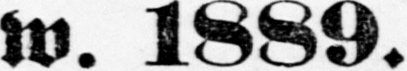w. 1889.
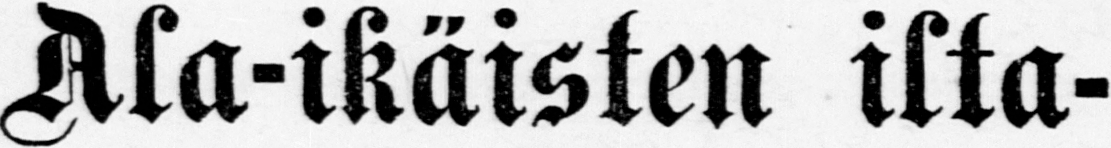Ala-ikäisten ilta-
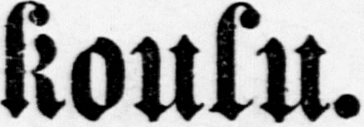koulu.
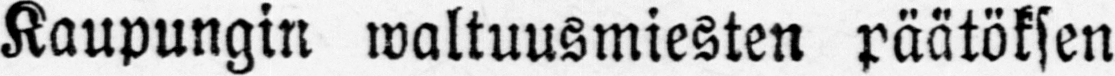Kaupungin waltuusmiesten päätöksen
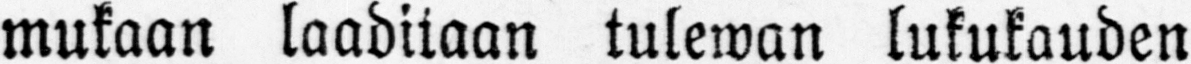mukaan laaditaan tulewan lukukauden
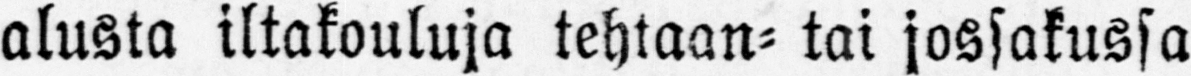alusta iltakouluja tehtaan- tai jossakussa
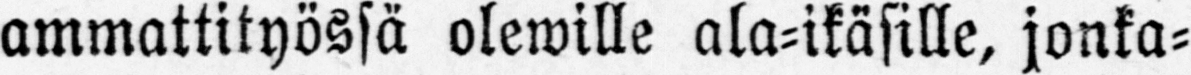ammattityössä olewille ala-ikäsille, jonka-
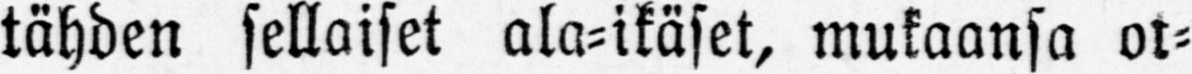tähden sellaiset ala-ikäset, mukaansa ot-
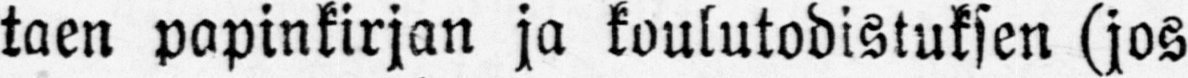taen papinkirjan ja koulutodistuksen (jos
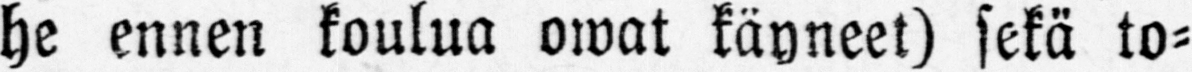he ennen koulua owat käyneet) sekä to-
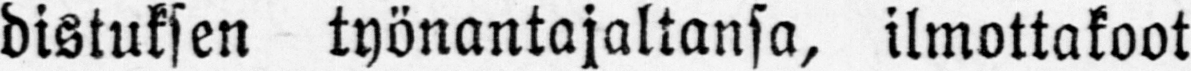distuksen työnantajaltansa, ilmottakoot
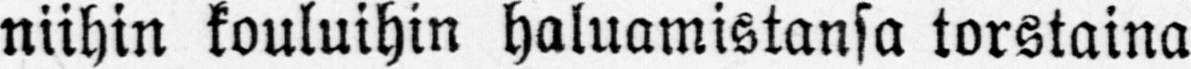niihin kouluihin haluamistansa torstaina
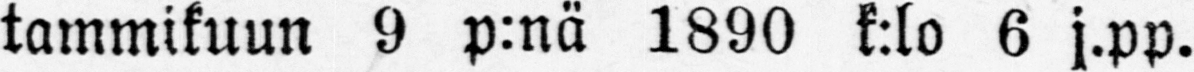tammikuun 9 p:nä 1890 k:lo 6 j.pp.
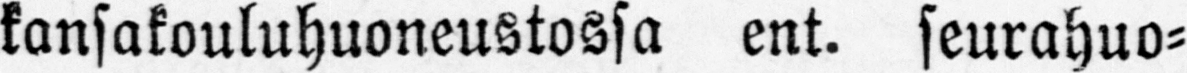kansakouluhuoneustossa ent. seurahuo-
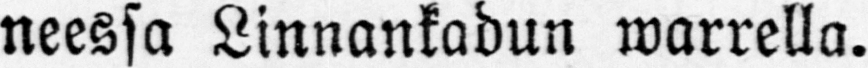neessa Linnankadun warrella.
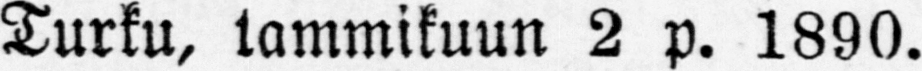Turku, tammikuun 2 p. 1890.
